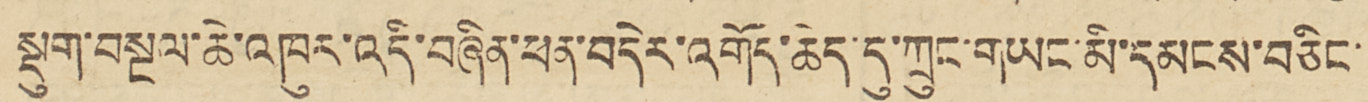སྡུག་བསྔལ་ཆེ་འཁུར་འདི་བཞིན་ཕན་བདེར་འགོད་ཆེད་དུ་ཀྲུང་གྱང་མི་དམངས་བཅིང་
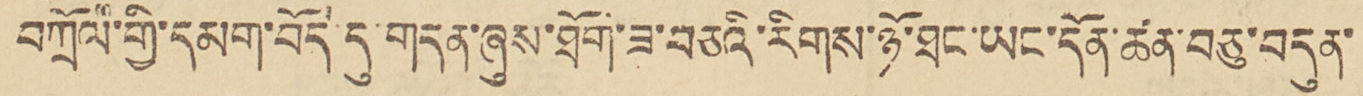བཀྲོལ་གྱི་དམག་བོད་དུ་གདན་ཞུས་ཐོག་ཟ་བཅའི་རིགས་ཉོ་ཐང་ཡང་དོན་ཚན་བཅུ་བདུན་
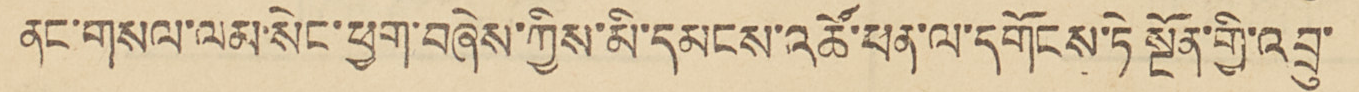ནང་གསལ་ལམ་སེང་ཕྱག་བཞེས་ཀྱིས་མི་དམངས་འཚོ་ཕན་ལ་དགོངས་ཏེ སྔོན་གྱི་འབྲུ་
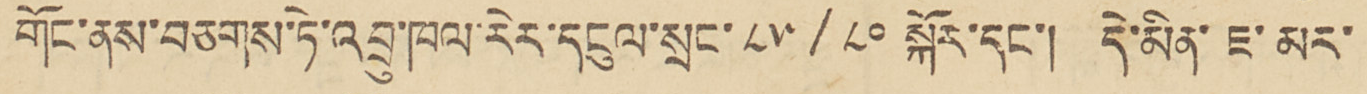གོང་ནས་བཅགས་ཏེ་འབྲུ་ཁལ་རེར་དངུལ་སྲུང་ ༨༥ / ༨༠ སྐོར་དང་། དེ་མིན་ཇ་མར་
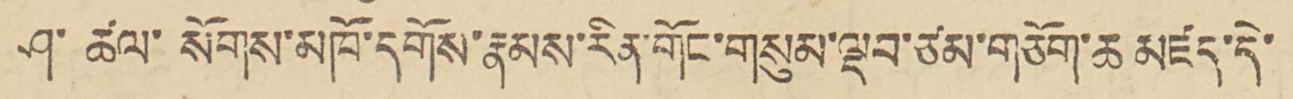ཤ་ཚལ་སོགས་མཁོ་དགོས་རྣམས་རིན་གོང་གསུམ་ལྡབ་ཙམ་གཅོག་ཆ་མཛད་དེ་
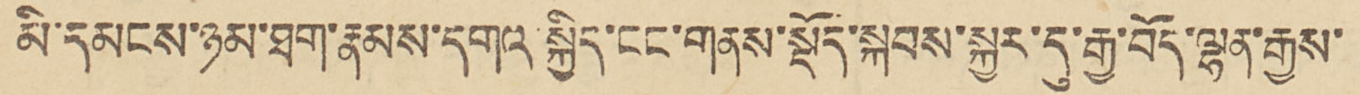མི་དམངས་ཉམ་ཐག་རྣམས་དགའ་སྐྱིད་ངང་གནས་སྡོད་སྐབས་སྐྱར་དུ་རྒྱ་བོད་ལྷན་རྒྱས་
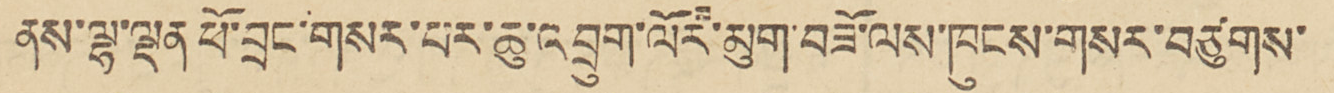ནས་ལྷ་ལྡན་ཕོ་བྲང་གསར་པར་ཆུ་འབྲུལ་ལོར་མུག་བཟོ་ལས་ཁུངས་གསར་བཙུགས་
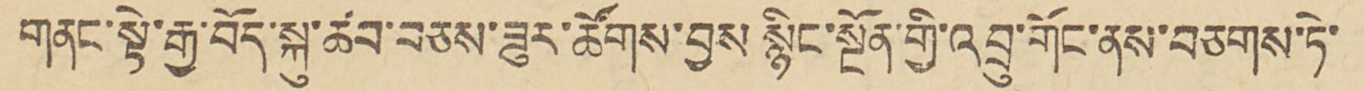གནང་སྟེ་རྒྱ་བོད་སྐུ་ཚབ་བཅས་ཟུར་ཚོགས་བྱས སྙིང་སྔོན་གྱི་འབྲུ་གོང་ནས་བཅགས་ཏེ་
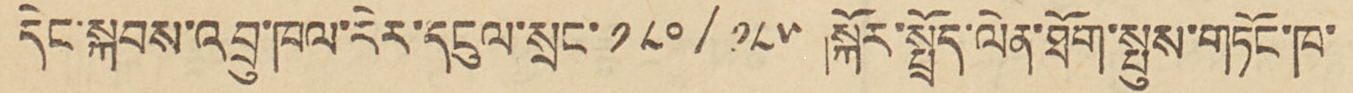དེང་སྐབས་འབྲུ་ཁལ་རེར་དངུལ་སྲང་ ༡༨༠/ ༡༨༥ སྐོར་སྤྲོད་ལེན་ཐོག་སྤུས་གཏོར་ཁ་
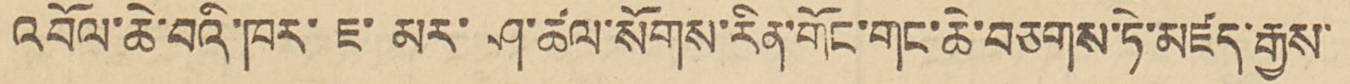འབོལ་ཆེ་བའི་ཁར་ཇ་མར་ཤ་ཚལ་སོགས་རིན་གོང་གང་ཆེ་བཅགས་ཏེ་མཛད་རྒྱས་
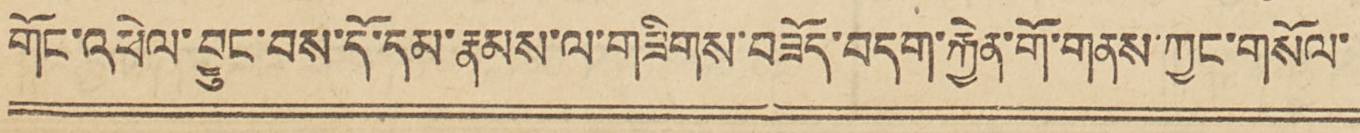གོང་འཕེལ་བྱུང་བས་དོ་དམ་རྣམས་ལ་གཟིགས་བཟོད་བདག་རྐྱེན་གོ་གནས་ཀྱང་གསོལ་
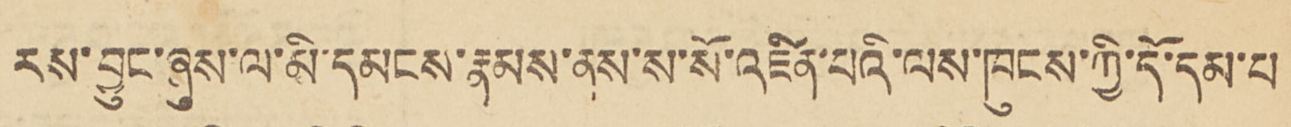རས་བྱུང་ཞུས་ལ་མི་དམངས་རྣམས་ནས་ས་སོ་འཛིན་པའི་ལས་ཁུངས་ཀྱི་དོ་དམ་པ
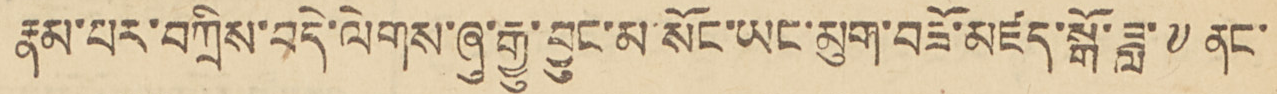རྣམ་པར་བཀྲིས་བདེ་ལེགས་ཞུ་རྒྱུ་བྱུང་མ་སོང་ཡང་མུག་བཟོ་མཛད་སྒོ་ཟླ་ ༧ ནང་
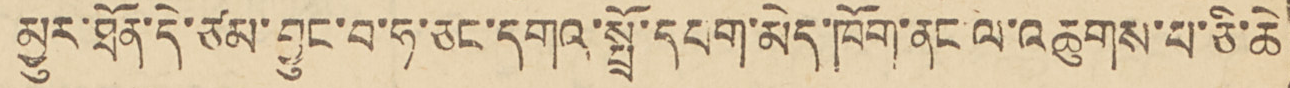མྱུར་ཐོན་དེ་ཙམ་བྱུང་བ་ཧ་ཅང་དགའ་སྤྱོ་དཔག་མེད་ཁོག་ནང་ལ་འཆུགས་པ་ཅི་ཆེ་
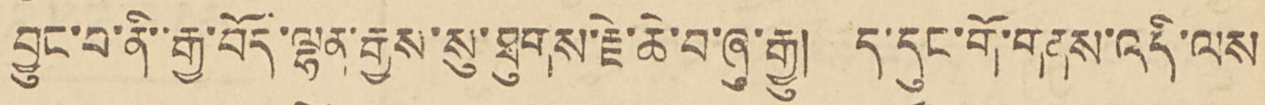བྱུང་བ་ནི་རྒྱ་བོད་ལྷན་རྒྱས་སུ་ཐུགས་རྗེ་ཆེ་བ་ཞུ་རྒྱུ། ད་དུང་གོ་གནས་འདི་ལས
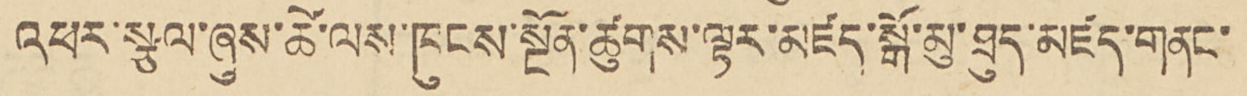འཕར་ལྩལ་ཞུས་ཚེ་ལས་ཁུངས་སྔོན་ཚུགས་ལྟར་མཛད་སྒོ་མུ་ཐུད་མཛད་གནང་
